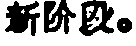新阶段。
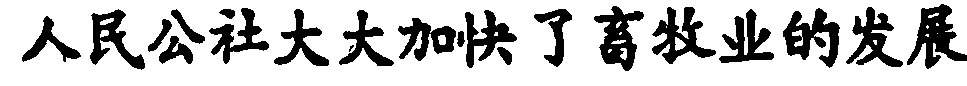人民公社大大加快了畜牧业的发展
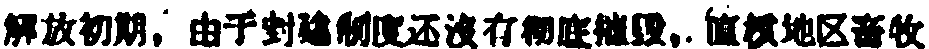解放初期，由子封建制度还沒有彻底摧毁，直核地区畜牧
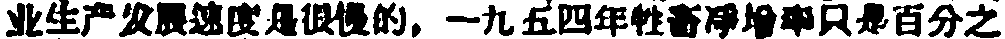业生产发展速度是很慢的，一九五四年牲畜淨增率只是百分之
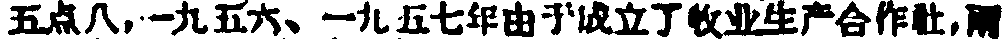五点八，一九五六、一九五七年由于成立了牧业生产合作社，两
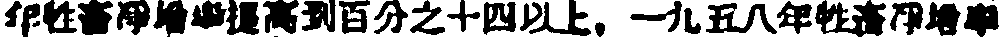年牲畜淨增率提高到百分之十四以上，一九五八年牲畜淨增率
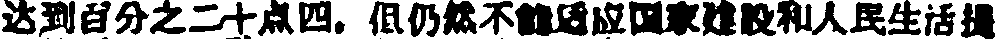达到百分之二十点四，但仍然不能适应国家建設和人民生活提
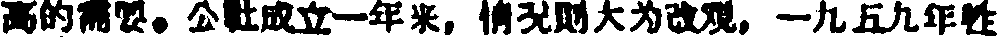高的需要。公社成立一年来，情況則大为改覌，一九五九年牲
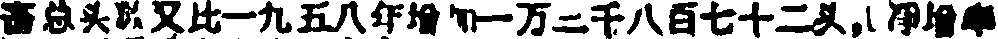畜总头数又比一九五八年增加一万三千八百七十二头，淨增率
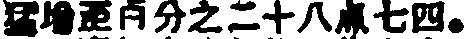猛增至百分之二十八点七四。
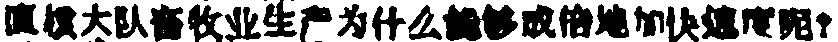直核大队畜牧业生产为什么能够成倍地加快速度呢？
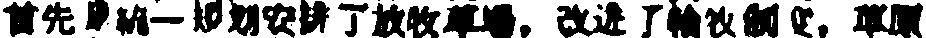首先是統一規划安排了放牧草場，改造了輪牧制度，草原
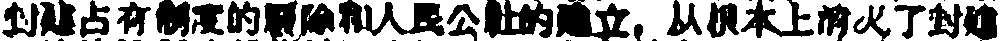封建占有制度的廢除和人民公社的建立，从根本上消灭了封建
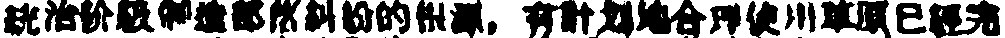統治阶級和   糾紛的根源，有計划地合理使用草原已經完
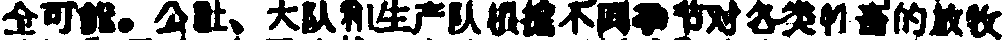全可能。公社、大队和生产队根据不同季节对各类牲畜的放牧
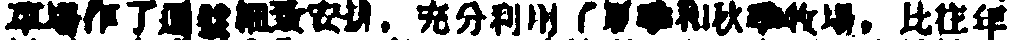场場作了通盤細致安排、充分利用了夏季和秋季牧場，比往年
